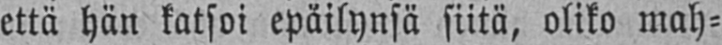että hän katsoi epäilynsä siitä, oliko mah-
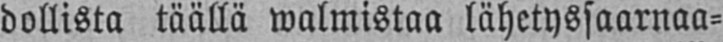dollista täällä walmistaa lähetyssaarnaa-
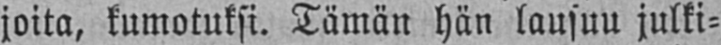joita, kumotuksi. Tämän hän lausuu julki-
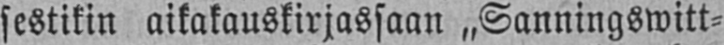sestikin aikakauskirjassaan „Sanningswitt-
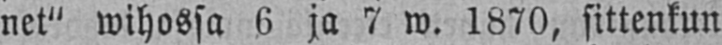net" wihossa 6 ja 7 w. 1870, sittenkun
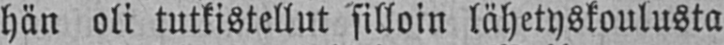hän oli tutkistellut silloin lähetyskoulusta
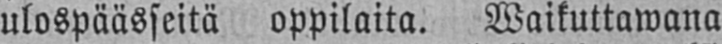ulospäässeitä oppilaita. Waikuttawana
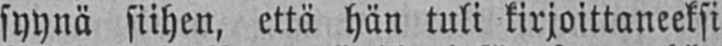syynä siihen, että hän tuli kirjoittaneeksi
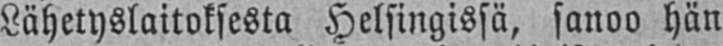Lähetyslaitoksesta Helsingissä, sanoo hän
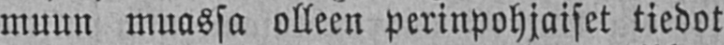muun muassa olleen perinpohjaiset tiedot
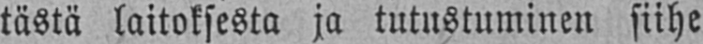tästä laitoksesta ja tutustuminen siihe
